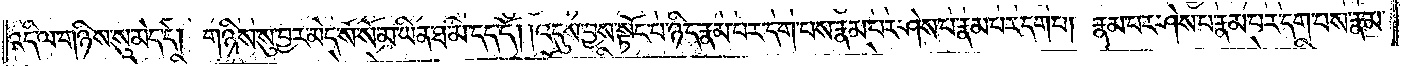འདི་ལ་གཉིས་སུ་མེད་དེ། གཉིས་སུ་བྱར་མེད་སོ་སོ་མ་ཡིན་ཐ་མི་དད་དོ། །འདུས་བྱས་སྟོང་པ་ཉིད་རྣམ་པར་དག་པས་རྣམ་པར་ཤེས་པ་རྣམ་པར་དག་པ། རྣམ་པར་ཤེས་པ་རྣམ་པར་དག་པས་རྣམ་
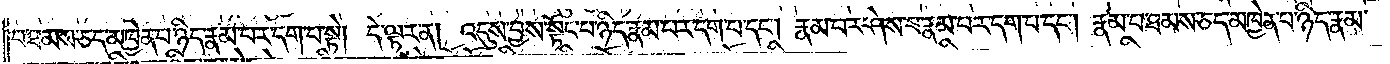པ་ཐམས་ཅད་མཁྱེན་པ་ཉིད་རྣམ་པར་དག་པ་སྟེ། དེ་ལྟར་ན། འདུས་བྱས་སྟོང་པ་ཉིད་རྣམ་པར་དག་པ་དང༌། རྣམ་པར་ཤེས་པ་རྣམ་པར་དག་པ་དང༌། རྣམ་པ་ཐམས་ཅད་མཁྱེན་པ་ཉིད་རྣམ་
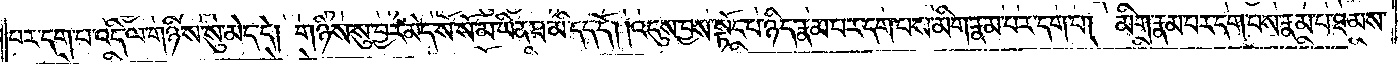པར་དག་པ་འདི་ལ་གཉིས་སུ་མེད་དེ། གཉིས་སུ་བྱར་མེད་སོ་སོ་མ་ཡིན་ཐ་མི་དད་དོ། །འདུས་བྱས་སྟོང་པ་ཉིད་རྣམ་པར་དག་པས་མིག་རྣམ་པར་དག་པ། མིག་རྣམ་པར་དག་པས་རྣམ་པ་ཐམས་
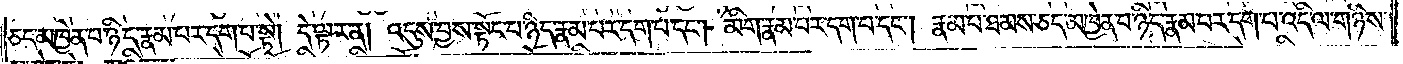ཅད་མཁྱེན་པ་ཉིད་རྣམ་པར་དག་པ་སྟེ། དེ་ལྟར་ན། འདུས་བྱས་སྟོང་པ་ཉིད་རྣམ་པར་དག་པ་དང༌། མིག་རྣམ་པར་དག་པ་དང༌། རྣམ་པ་ཐམས་ཅད་མཁྱེན་པ་ཉིད་རྣམ་པར་དག་པ་འདི་ལ་གཉིས་
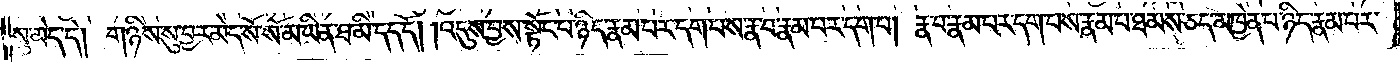སུ་མེད་དེ། གཉིས་སུ་བྱར་མེད་སོ་སོ་མ་ཡིན་ཐ་མི་དད་དོ། །འདུས་བྱས་སྟོང་པ་ཉིད་རྣམ་པར་དག་པས་རྣ་བ་རྣམ་པར་དག་པ། རྣ་བ་རྣམ་པར་དག་པས་རྣམ་པ་ཐམས་ཅད་མཁྱེན་པ་ཉིད་རྣམ་པར་
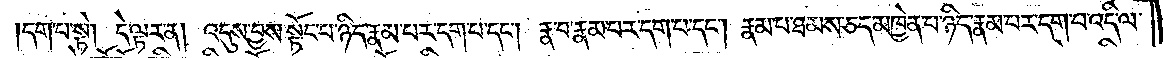དག་པ་སྟེ། དེ་ལྟར་ན། འདུས་བྱས་སྟོང་པ་ཉིད་རྣམ་པར་དག་པ་དང༌། རྣ་བ་རྣམ་པར་དག་པ་དང༌། རྣམ་པ་ཐམས་ཅད་མཁྱེན་པ་ཉིད་རྣམ་པར་དག་པ་འདི་ལ་
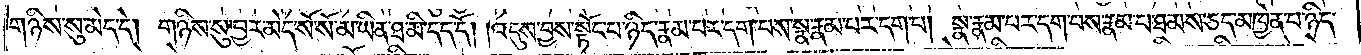གཉིས་སུ་མེད་དེ། གཉིས་སུ་བྱར་མེད་སོ་སོ་མ་ཡིན་ཐ་མི་དད་དོ། །འདུས་བྱས་སྟོང་པ་ཉིད་རྣམ་པར་དག་པས་སྣ་རྣམ་པར་དག་པ། སྣ་རྣམ་པར་དག་པས་རྣམ་པ་ཐམས་ཅད་མཁྱེན་པ་ཉིད་
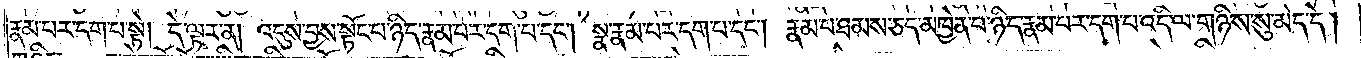རྣམ་པར་དག་པ་སྟེ། དེ་ལྟར་ན། འདུས་བྱས་སྟོང་པ་ཉིད་རྣམ་པར་དག་པ་དང༌། སྣ་རྣམ་པར་དག་པ་དང༌། རྣམ་པ་ཐམས་ཅད་མཁྱེན་པ་ཉིད་རྣམ་པར་དག་པ་འདི་ལ་གཉིས་སུ་མེད་དེ།
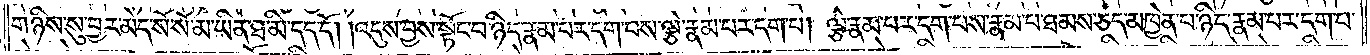གཉིས་སུ་བྱར་མེད་སོ་སོ་མ་ཡིན་ཐ་མི་དད་དོ། །འདུས་བྱས་སྟོང་པ་ཉིད་རྣམ་པར་དག་པས་ལྕེ་རྣམ་པར་དག་པ། ལྕེ་རྣམ་པར་དག་པས་རྣམ་པ་ཐམས་ཅད་མཁྱེན་པ་ཉིད་རྣམ་པར་དག་པ་
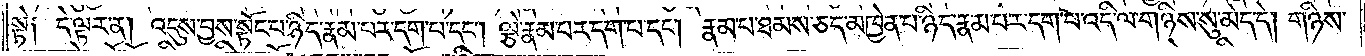སྟེ༑ དེ་ལྟར་ན། འདུས་བྱས་སྟོང་པ་ཉིད་རྣམ་པར་དག་པ་དང༌། ལྕེ་རྣམ་པར་དག་པ་དང༌། རྣམ་པ་ཐམས་ཅད་མཁྱེན་པ་ཉིད་རྣམ་པར་དག་པ་འདི་ལ་གཉིས་སུ་མེད་དེ། གཉིས་
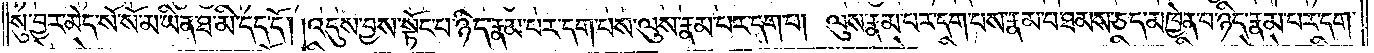སུ་བྱར་མེད་སོ་སོ་མ་ཡིན་ཐ་མི་དད་དོ། །འདུས་བྱས་སྟོང་པ་ཉིད་རྣམ་པར་དག་པས་ལུས་རྣམ་པར་དག་པ། ལུས་རྣམ་པར་དག་པས་རྣམ་པ་ཐམས་ཅད་མཁྱེན་པ་ཉིད་རྣམ་པར་དག་
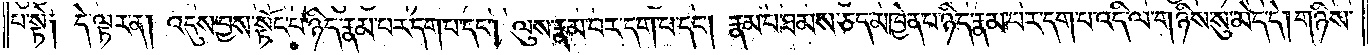པ་སྟེ༑ དེ་ལྟར་ན། འདུས་བྱས་སྟོང་པ་ཉིད་རྣམ་པར་དག་པ་དང༌། ལུས་རྣམ་པར་དག་པ་དང༌། རྣམ་པ་ཐམས་ཅད་མཁྱེན་པ་ཉིད་རྣམ་པར་དག་པ་འདི་ལ་གཉིས་སུ་མེད་དེ། གཉིས་
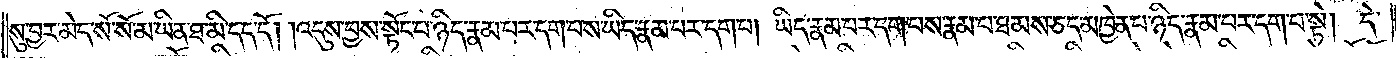སུ་བྱར་མེད་སོ་སོ་མ་ཡིན་ཐ་མི་དད་དོ། །འདུས་བྱས་སྟོང་པ་ཉིད་རྣམ་པར་དག་པས་ཡིད་རྣམ་པར་དག་པ། ཡིད་རྣམ་པར་དག་པས་རྣམ་པ་ཐམས་ཅད་མཁྱེན་པ་ཉིད་རྣམ་པར་དག་པ་སྟེ། དེ་
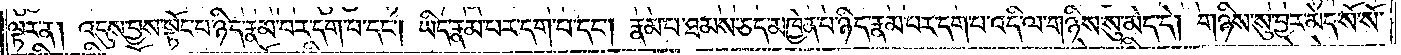ལྟར་ན། འདུས་བྱས་སྟོང་པ་ཉིད་རྣམ་པར་དག་པ་དང༌། ཡིད་རྣམ་པར་དག་པ་དང༌། རྣམ་པ་ཐམས་ཅད་མཁྱེན་པ་ཉིད་རྣམ་པར་དག་པ་འདི་ལ་གཉིས་སུ་མེད་དེ། གཉིས་སུ་བྱར་མེད་སོ་སོ་
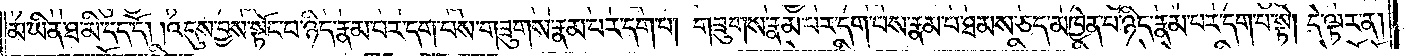མ་ཡིན་ཐ་མི་དད་དོ། །འདུས་བྱས་སྟོང་པ་ཉིད་རྣམ་པར་དག་པས་གཟུགས་རྣམ་པར་དག་པ། གཟུགས་རྣམ་པར་དག་པས་རྣམ་པ་ཐམས་ཅད་མཁྱེན་པ་ཉིད་རྣམ་པར་དག་པ་སྟེ། དེ་ལྟར་ན།
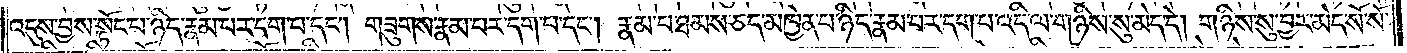འདུས་བྱས་སྟོང་པ་ཉིད་རྣམ་པར་དག་པ་དང༌། གཟུགས་རྣམ་པར་དག་པ་དང༌། རྣམ་པ་ཐམས་ཅད་མཁྱེན་པ་ཉིད་རྣམ་པར་དག་པ་འདི་ལ་གཉིས་སུ་མེད་དེ། གཉིས་སུ་བྱར་མེད་སོ་སོ་
